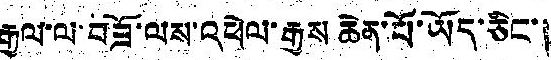རྒྱལ་ལ་བཟོ་ལས་འཕེལ་རྒྱས ཆེན་པོ་ཡོད་ཅིང་།
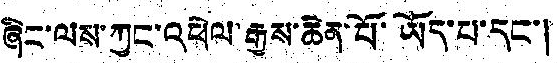ཞིང་ལས་ཀྱང་འཕེལ་རྒྱས་ཆེན་པོ་ཡོད་པ་དང་།
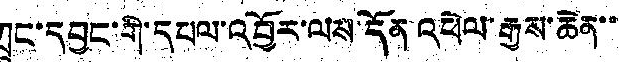ཀྲུང་དབྱང་གི་དཔལ་འབྱོར་ལས་དོན་འཕེལ་རྒྱས་ཆེན་་
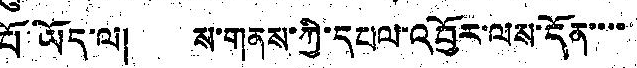པོ་ཡོད་ལ། ས་གནས་ཀྱི་དཔལ་འབྱོར་ལས་དོན་་་་
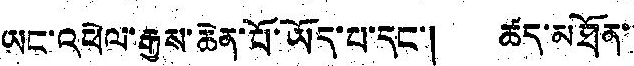ཡང་འཕེལ་རྒྱས་ཆེན་པོ་ཡོད་པ་དང་། ཚད་མཐོན་
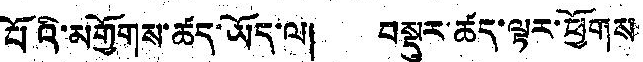པོའི་མགྱོགས་ཚད་ཡོད་ལ། བསྡུར་ཚད་ལྟར་ཕྱོགས
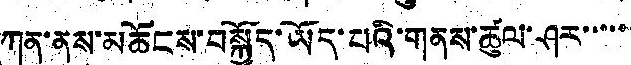ཀུན་ནས་མཆོངས་བསྐྱོད་ཡོད་པའི་གནས་ཚུལ་ཤར་་་་་
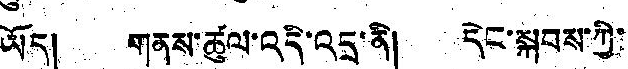ཡོད། གནས་ཚུལ་འདི་འདྲ་ནི། དེང་སྐབས་ཀྱི་
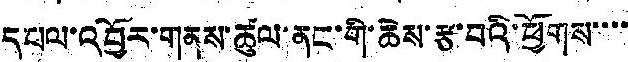དཔལ་འབྱོར་གནས་ཚུལ་ནང་གི་ཆེས་རྩ་བའི་ཕྱོགས་་་་
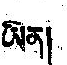ཡིན།
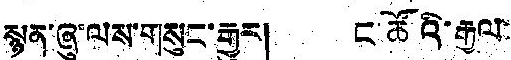སྙན་ཞུ་ལས་གསུང་རྒྱུར། ང་ཚོའི་རྒྱལ་
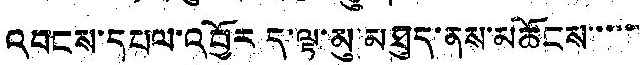འབངས་དཔལ་འབྱོར ད་ལྟ་མུ་མཐུད་ནས་མཆོངས་་་་་
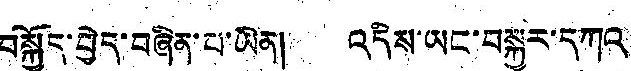བསྐྱོད་བྱེད་བཞིན་པ་ཡིན། འདིས་ཡང་བསྐྱར་དགའ
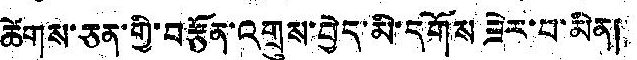ཚེགས་ཅན་གྱི་བརྩོན་འགྲུས་བྱེད་མི་དགོས ཟེར་བ་མིན།
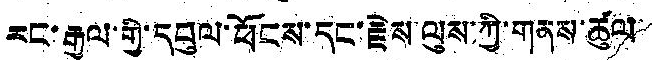རང་རྒྱལ་གྱི་དབུལ་ཕྱོངས་དང་རྗེས་ལུས་ཀྱི་གནས་ཚུལ
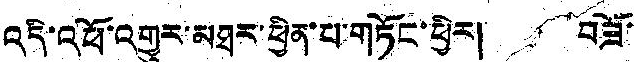འདི་འཕོ་འགྱུར་མཐར་ཕྱིན་པ་གཏོང་ཕྱིར། བཟོ་
